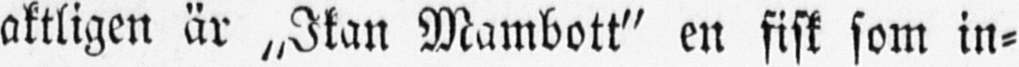aktligen är „Ikan Mambott" en sist som in-
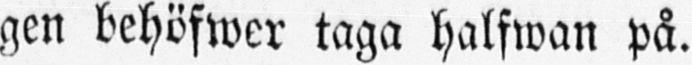gen behöfwer taga halfwan på.
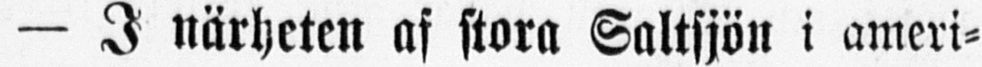- I närheten af stora Saltsjön i ameri-
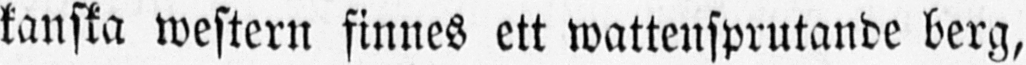kanska western finnes ett wattensprutande berg,
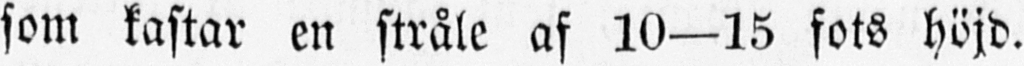som kastar en stråle af 10—15 fots höjd.
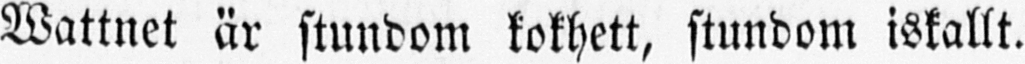Wattnet är stundom kokhett, stundom iskallt.
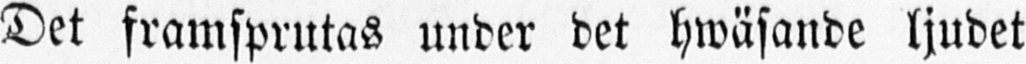Det framsprutas under det hwäsande ljudet
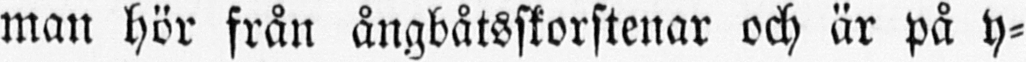man hör från ångbåtsskorstenar och är på y-
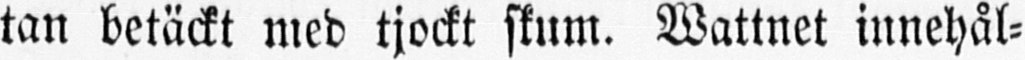tan betäckt med tjockt skum. Wattnet innehål-
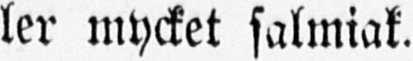ler mycket salmiak.
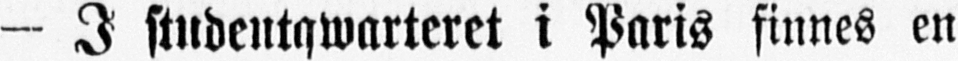— I studentqwarteret i Paris finnes en
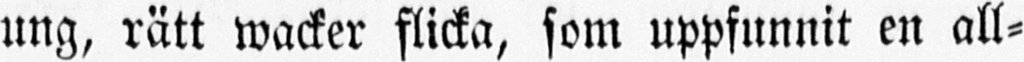ung, rätt wacker flicka, som uppfunnit en all-
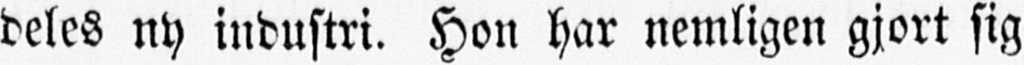deles ny industri. Hon har nemligen gjort sig
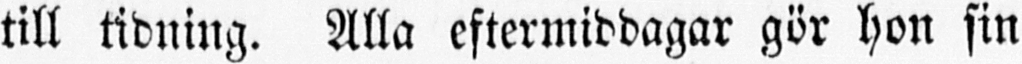till tidning. Alla eftermiddagar gör hon sin
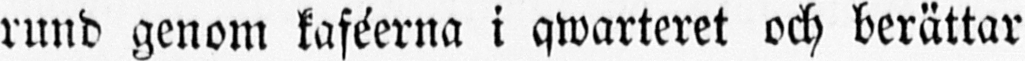rund genom kaféerna i qwarteret och berättar
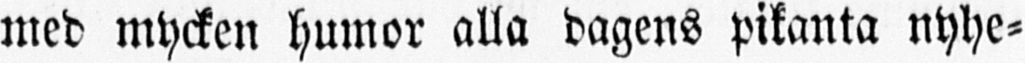med mycken humor alla dagens pikanta nyhe-
